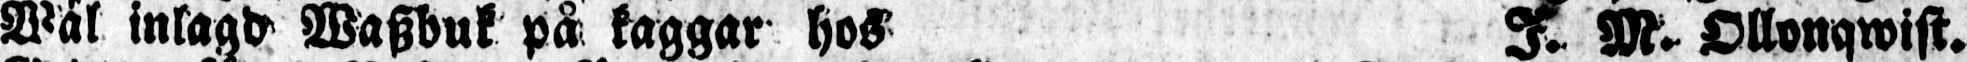Wäl inlagd Waszbuk på kaggar hos I. M. Ollonqwist.
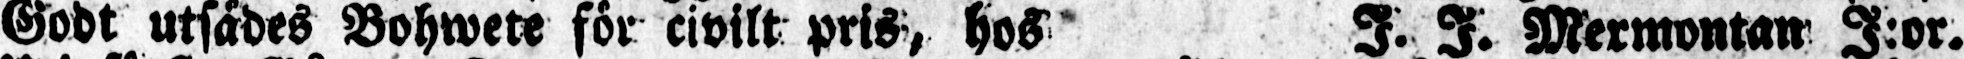Godt utsädes Bohwete för civilt pris, Hos I. I. Mermontan I:or.
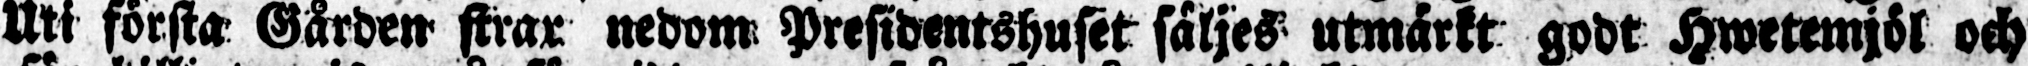Uti första Gården strax nedom Presidentshuset säljes utmärkt godt Hwetemjöl och
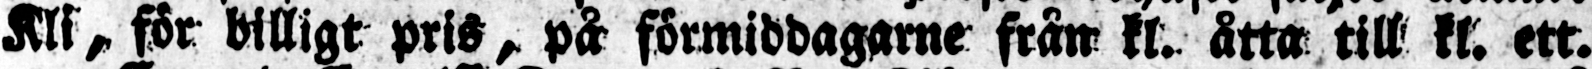Kli, för billigt pris, på förmiddagarne från kl. åtta till kl. ett.
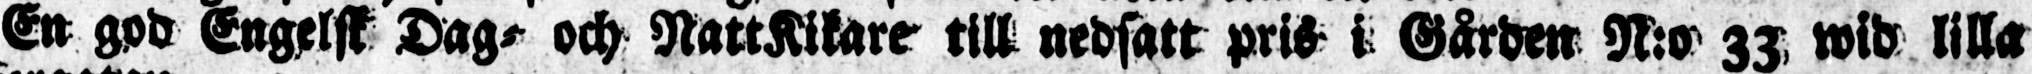En god Engelsk Dag- och NattKikare till nedsatt pris i Gården N:o 33 wid lilla
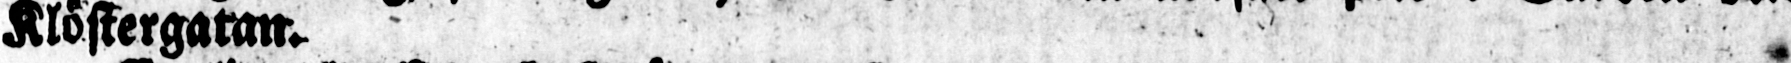Klöstergatan.
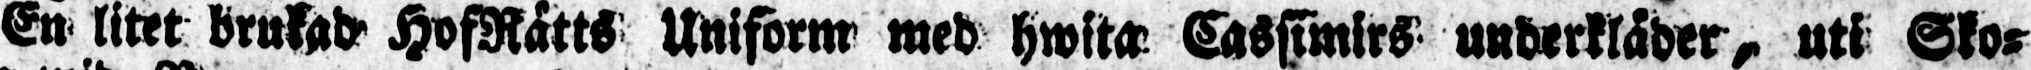En litet brukad HofRätts Uniform med hwita Cassimirs underkläder, uti Sko-
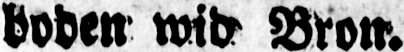boden wid Bron.
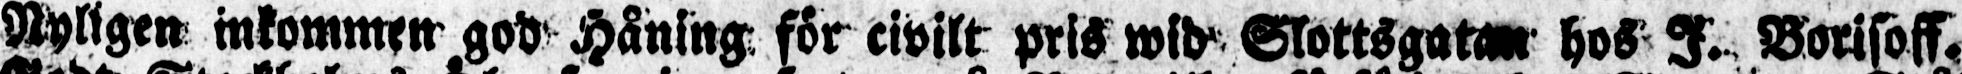Nyligen inkommen god Håning för civilt pris wid Slottsgatan hos I. Borisoff.
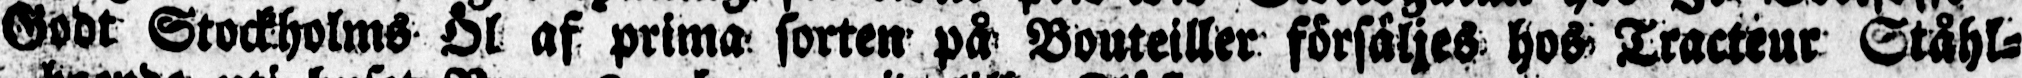Godt Stockholms Öl af prima sorten på Bouteiller försäljes hos Tracteur Ståhl-
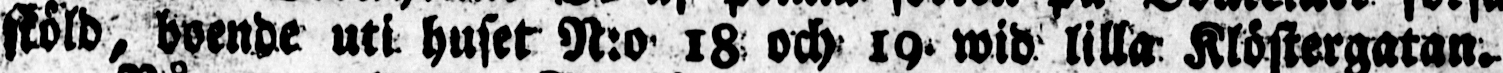sköld, boende uti huset N:o 18 och 19. wid lilla Klöstergatan.
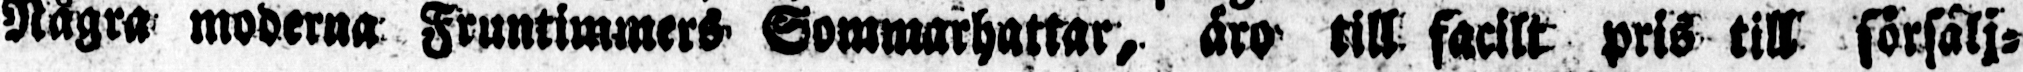Några moderna Fruntimmers Sommarhattar, äro till facilt pris till försälj-
